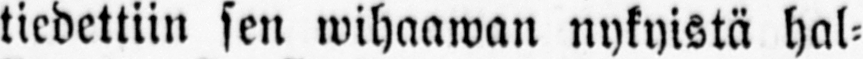tiedettiin sen wihaawan nykyistä hal-
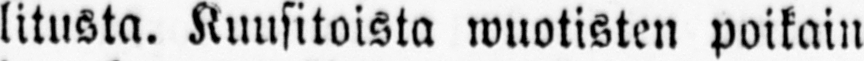litusta. Kuusitoista wuotisten poikain
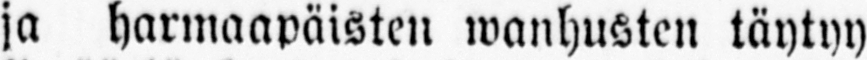ja harmaapäisten wanhusten täytyy
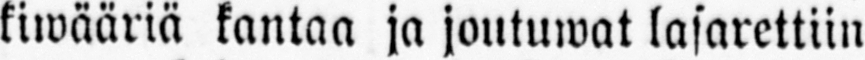kiwääriä kantaa ja joutuwat lasarettiin
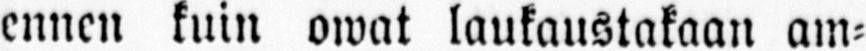ennen kuin owat laukaustakaan am-
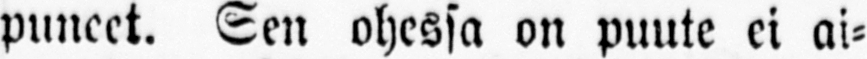puneet. Sen ohessa on puute ei ai-
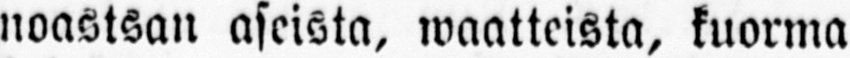noastsan aseista, waatteista, kuorma-
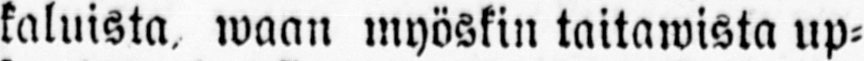kaluista, waan myöskin taitawista up-
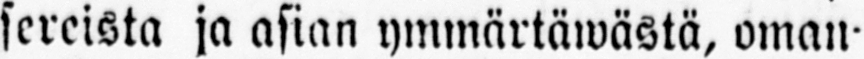sereista ja asian ymmärtäwästä, oman-
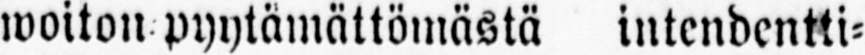woiton pyytämättömästä intendentti-
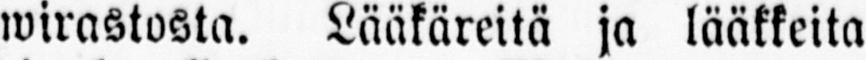wirastosta. Lääkäreitä ja lääkkeitä
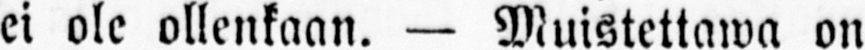ei ole ollenkaan. — Muistettawa on
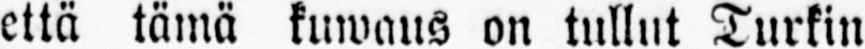että tämä kuwaus on tullut Turkin
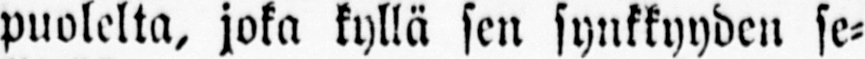puolelta, joka kyllä sen synkkyyden se-
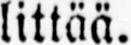littää.
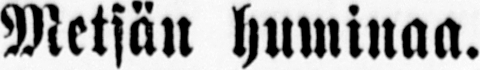Metsän huminaa.
